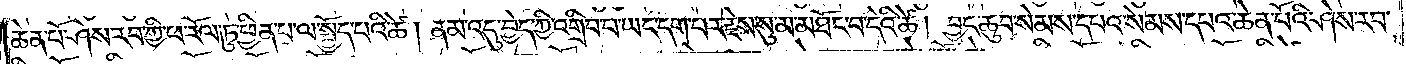ཆེན་པོ་ཤེས་རབ་ཀྱི་ཕ་རོལ་ཏུ་ཕྱིན་པ་ལ་སྤྱོད་པའི་ཚེ། ནམ་འདུ་བྱེད་ཀྱི་འགྲིབ་པ་ཡང་དག་པར་རྗེས་སུ་མ་མཐོང་བ་དེའི་ཚེ། བྱང་ཆུབ་སེམས་དཔའ་སེམས་དཔའ་ཆེན་པོའི་ཤེས་རབ་
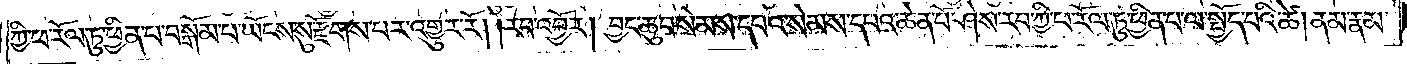ཀྱི་ཕ་རོལ་ཏུ་ཕྱིན་པ་བསྒོམ་པ་ཡོངས་སུ་རྫོགས་པར་འགྱུར་རོ། །རབ་འབྱོར། བྱང་ཆུབ་སེམས་དཔའ་སེམས་དཔའ་ཆེན་པོ་ཤེས་རབ་ཀྱི་ཕ་རོལ་ཏུ་ཕྱིན་པ་ལ་སྤྱོད་པའི་ཚེ། ནམ་རྣམ་
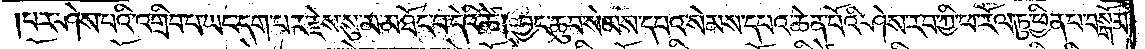པར་ཤེས་པའི་འགྲིབ་པ་ཡང་དག་པར་རྗེས་སུ་མ་མཐོང་བ་དེའི་ཚེ། བྱང་ཆུབ་སེམས་དཔའ་སེམས་དཔའ་ཆེན་པོའི་ཤེས་རབ་ཀྱི་ཕ་རོལ་ཏུ་ཕྱིན་པ་བསྒོམ་
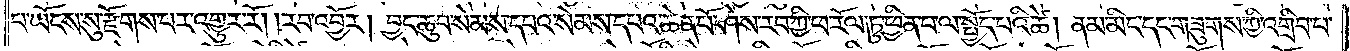པ་ཡོངས་སུ་རྫོགས་པར་འགྱུར་རོ། །རབ་འབྱོར། བྱང་ཆུབ་སེམས་དཔའ་སེམས་དཔའ་ཆེན་པོ་ཤེས་རབ་ཀྱི་ཕ་རོལ་ཏུ་ཕྱིན་པ་ལ་སྤྱོད་པའི་ཚེ། ནམ་མིང་དང་གཟུགས་ཀྱི་འགྲིབ་པ་
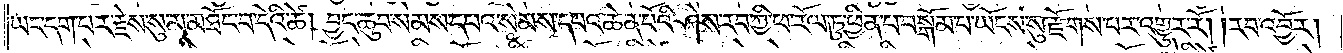ཡང་དག་པར་རྗེས་སུ་མ་མཐོང་བ་དེའི་ཚེ། བྱང་ཆུབ་སེམས་དཔའ་སེམས་དཔའ་ཆེན་པོའི་ཤེས་རབ་ཀྱི་ཕ་རོལ་ཏུ་ཕྱིན་པ་བསྒོམ་པ་ཡོངས་སུ་རྫོགས་པར་འགྱུར་རོ། །རབ་འབྱོར།
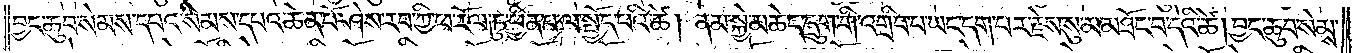བྱང་ཆུབ་སེམས་དཔའ་སེམས་དཔའ་ཆེན་པོ་ཤེས་རབ་ཀྱི་ཕ་རོལ་ཏུ་ཕྱིན་པ་ལ་སྤྱོད་པའི་ཚེ། ནམ་སྐྱེ་མཆེད་དྲུག་གི་འགྲིབ་པ་ཡང་དག་པར་རྗེས་སུ་མ་མཐོང་བ་དེའི་ཚེ། བྱང་ཆུབ་སེམས་
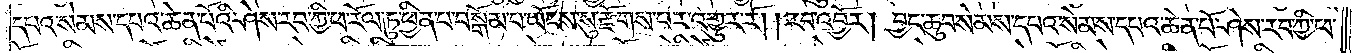དཔའ་སེམས་དཔའ་ཆེན་པོའི་ཤེས་རབ་ཀྱི་ཕ་རོལ་ཏུ་ཕྱིན་པ་བསྒོམ་པ་ཡོངས་སུ་རྫོགས་པར་འགྱུར་རོ། །རབ་འབྱོར། བྱང་ཆུབ་སེམས་དཔའ་སེམས་དཔའ་ཆེན་པོ་ཤེས་རབ་ཀྱི་ཕ་
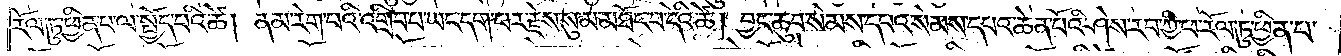རོལ་ཏུ་ཕྱིན་པ་ལ་སྤྱོད་པའི་ཚེ། ནམ་རེག་པའི་འགྲིབ་པ་ཡང་དག་པར་རྗེས་སུ་མ་མཐོང་བ་དེའི་ཚེ། བྱང་ཆུབ་སེམས་དཔའ་སེམས་དཔའ་ཆེན་པོའི་ཤེས་རབ་ཀྱི་ཕ་རོལ་ཏུ་ཕྱིན་པ་
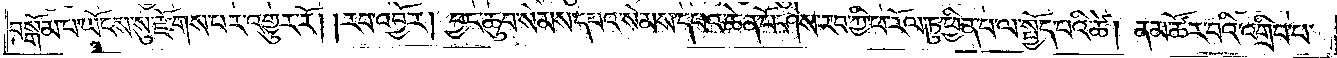བསྒོམ་པ་ཡོངས་སུ་རྫོགས་པར་འགྱུར་རོ། །རབ་འབྱོར། བྱང་ཆུབ་སེམས་དཔའ་སེམས་དཔའ་ཆེན་པོ་ཤེས་རབ་ཀྱི་ཕ་རོལ་ཏུ་ཕྱིན་པ་ལ་སྤྱོད་པའི་ཚེ། ནམ་ཚོར་བའི་འགྲིབ་པ་
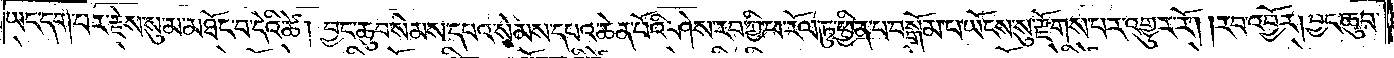ཡང་དག་པར་རྗེས་སུ་མ་མཐོང་བ་དེའི་ཚེ། བྱང་ཆུབ་སེམས་དཔའ་སེམས་དཔའ་ཆེན་པོའི་ཤེས་རབ་ཀྱི་ཕ་རོལ་ཏུ་ཕྱིན་པ་བསྒོམ་པ་ཡོངས་སུ་རྫོགས་པར་འགྱུར་རོ། །རབ་འབྱོར། བྱང་ཆུབ་
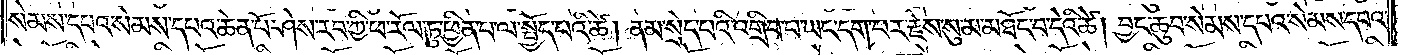སེམས་དཔའ་སེམས་དཔའ་ཆེན་པོ་ཤེས་རབ་ཀྱི་ཕ་རོལ་ཏུ་ཕྱིན་པ་ལ་སྤྱོད་པའི་ཚེ། ནམ་སྲེད་པའི་འགྲིབ་པ་ཡང་དག་པར་རྗེས་སུ་མ་མཐོང་བ་དེའི་ཚེ། བྱང་ཆུབ་སེམས་དཔའ་སེམས་དཔའ་
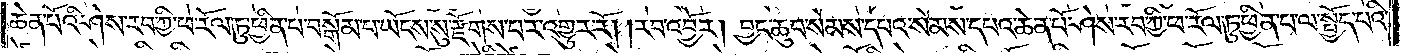ཆེན་པོའི་ཤེས་རབ་ཀྱི་ཕ་རོལ་ཏུ་ཕྱིན་པ་བསྒོམ་པ་ཡོངས་སུ་རྫོགས་པར་འགྱུར་རོ། །རབ་འབྱོར། བྱང་ཆུབ་སེམས་དཔའ་སེམས་དཔའ་ཆེན་པོ་ཤེས་རབ་ཀྱི་ཕ་རོལ་ཏུ་ཕྱིན་པ་ལ་སྤྱོད་པའི་
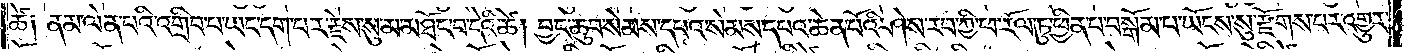ཚེ༑ ནམ་ལེན་པའི་འགྲིབ་པ་ཡང་དག་པར་རྗེས་སུ་མ་མཐོང་བ་དེའི་ཚེ། བྱང་ཆུབ་སེམས་དཔའ་སེམས་དཔའ་ཆེན་པོའི་ཤེས་རབ་ཀྱི་ཕ་རོལ་ཏུ་ཕྱིན་པ་བསྒོམ་པ་ཡོངས་སུ་རྫོགས་པར་འགྱུར་
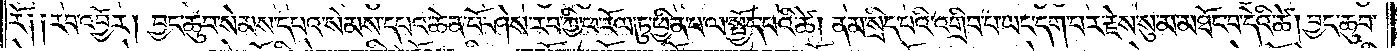རོ༑ ༑རབ་འབྱོར། བྱང་ཆུབ་སེམས་དཔའ་སེམས་དཔའ་ཆེན་པོ་ཤེས་རབ་ཀྱི་ཕ་རོལ་ཏུ་ཕྱིན་པ་ལ་སྤྱོད་པའི་ཚེ། ནམ་སྲིད་པའི་འགྲིབ་པ་ཡང་དག་པར་རྗེས་སུ་མ་མཐོང་བ་དེའི་ཚེ། བྱང་ཆུབ་
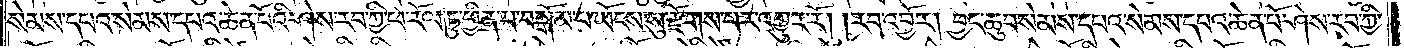སེམས་དཔའ་སེམས་དཔའ་ཆེན་པོའི་ཤེས་རབ་ཀྱི་ཕ་རོལ་ཏུ་ཕྱིན་པ་བསྒོམ་པ་ཡོངས་སུ་རྫོགས་པར་འགྱུར་རོ། །རབ་འབྱོར། བྱང་ཆུབ་སེམས་དཔའ་སེམས་དཔའ་ཆེན་པོ་ཤེས་རབ་ཀྱི་
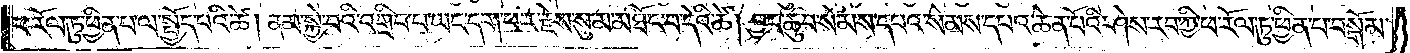ཕ་རོལ་ཏུ་ཕྱིན་པ་ལ་སྤྱོད་པའི་ཚེ། ནམ་སྐྱེ་བའི་འགྲིབ་པ་ཡང་དག་པར་རྗེས་སུ་མ་མཐོང་བ་དེའི་ཚེ། བྱང་ཆུབ་སེམས་དཔའ་སེམས་དཔའ་ཆེན་པོའི་ཤེས་རབ་ཀྱི་ཕ་རོལ་ཏུ་ཕྱིན་པ་བསྒོམ་
